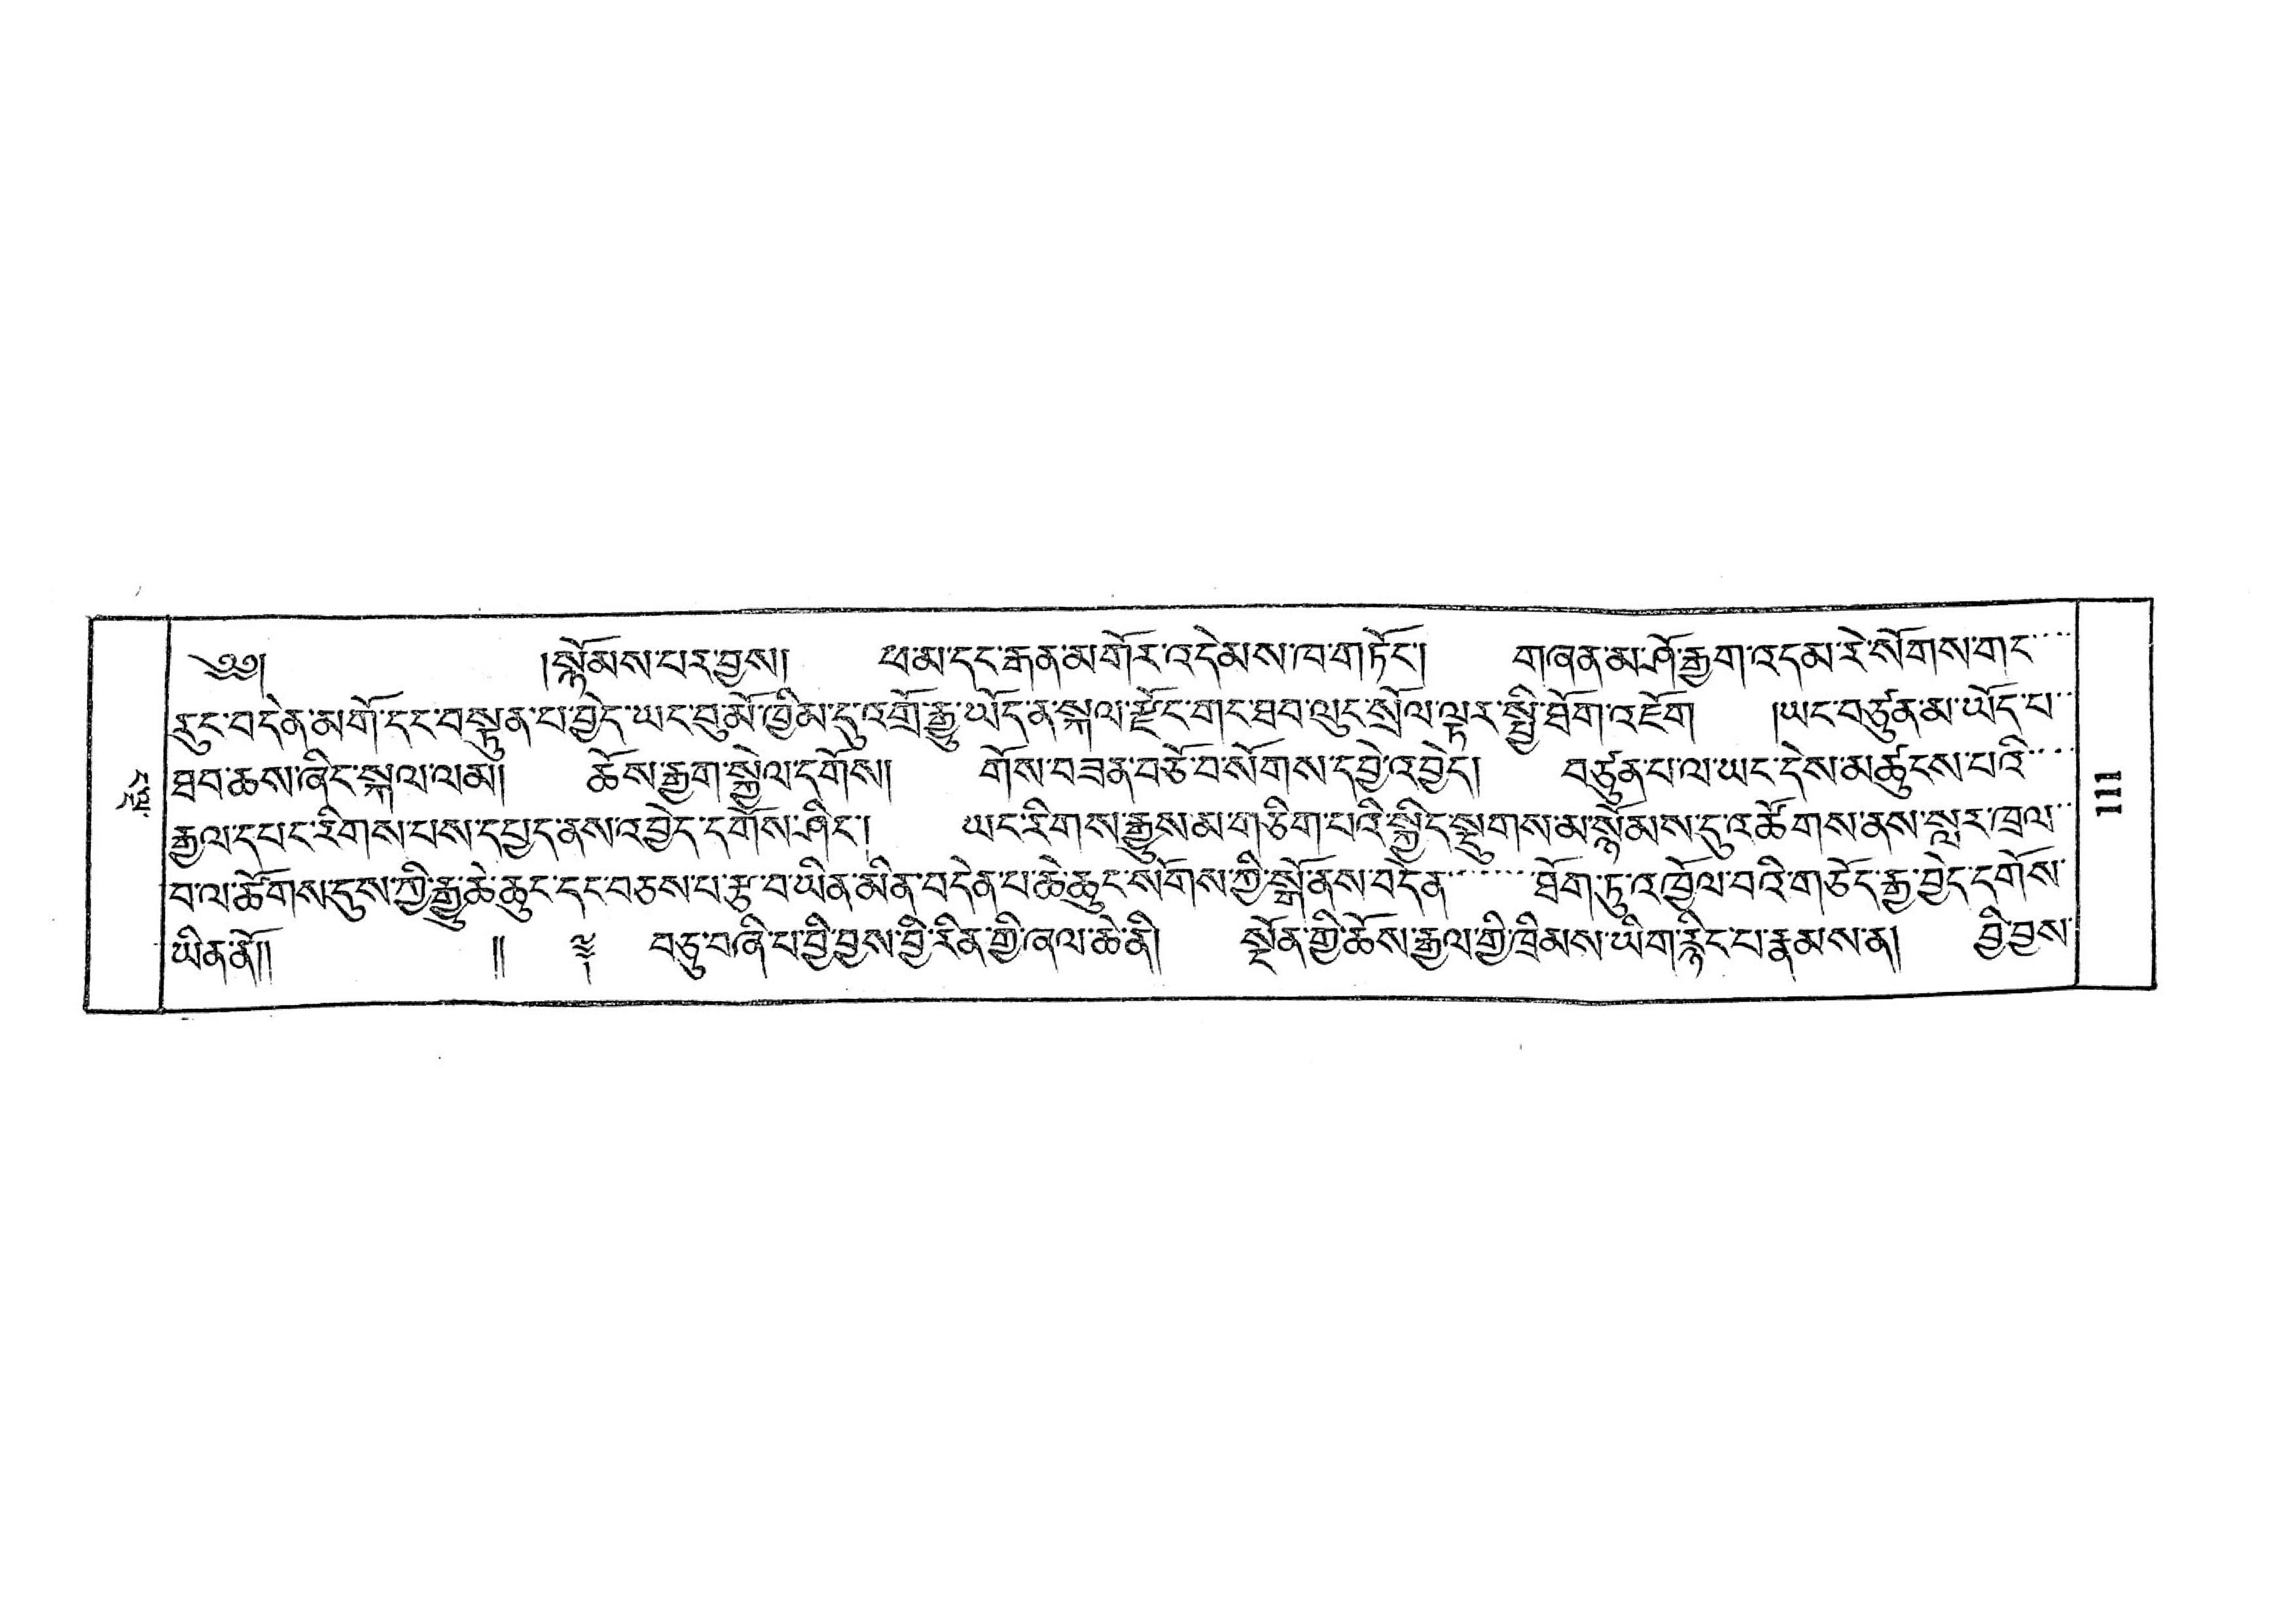ང་ལྔ་
༄༅།  །སྣོམས་པར་བྱས། ཕ་མ་དང་རྒན་མགོར་འདེམས་ཁ་གཏོང་། བཞན་མ་ཤོ་རྒྱག་འདམ་རེ་སོགས་གང་་་་།
རུང་བདེན་མགོ་དང་བསྟུན་པ་བྱེད་ཡང་བུ་མོ་ཁྱིམ་དུ་འགྲོ་རྒྱུ་ཡོད་ན་སྐལ་རྫོང་གང་ཐབ་ལུང་སྲོལ་ལྟར་སྤྱི་ཐོག་འཇོག །ཡང་བཙུན་མ་ཡོད་པ་་
ཐབ་ཆས་ཞིང་སྐལ་ལམ། ཆོས་རྒྱག་སྐྱེལ་དགོས། གོས་བཟན་བཅོ་བ་སོགས་དབྱེ་འབྱེད། བཙུན་པ་ལ་ཡང་དེས་མཚུངས་པའི་་་་
རྒྱལ་དཔང་རིགས་པས་དཔྱད་ནས་འཕྱེད་དགོས་ཤིང་། ཡང་རིགས་རྒྱུས་མ་གཅིག་པའི་སྐྱིད་སྡུགས་མ་སྙོམས་དུ་འཚོགས་ནས་སླར་ཁྲལ་་
བ་ལ་ཚོགས་དུས་ཀྱི་རྒྱུ་ཆེ་ཆུང་དང་བཅས་པ་རྩ་བ་ཡིན་མིན་བདེན་པ་ཆེ་ཆུང་སོགས་ཀྱི་སྒོ་ནས་བདེན་་་་་་་ཐོག་ཏུ་འཁྱོལ་བའི་གཅོད་རྒྱུ་བྱེད་དགོས་
ཡིན་ནོ།།  །། ༈ བཅུ་བཞི་པ་བྱི་བྱས་བྱི་རིན་གྱི་ཞལ་ཆེ་ནི། སྔོན་གྱི་ཆོས་རྒྱལ་གྱི་ཁྲིམས་ཡིག་རྙིང་པ་རྣམས་ན། བྱི་བྱས་
